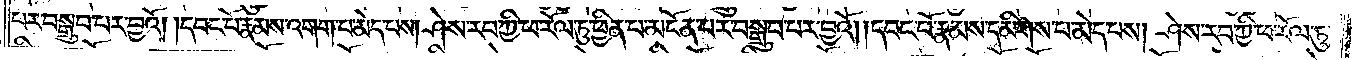པར་བསྒྲུབ་པར་བྱའོ། །དབང་པོ་རྣམས་འགག་པ་མེད་པས། ཤེས་རབ་ཀྱི་ཕ་རོལ་ཏུ་ཕྱིན་པ་མངོན་པར་བསྒྲུབ་པར་བྱའོ། །དབང་པོ་རྣམས་དམིགས་པ་མེད་པས། ཤེས་རབ་ཀྱི་ཕ་རོལ་ཏུ་
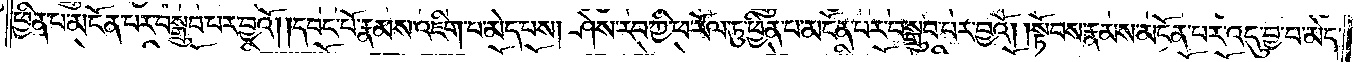ཕྱིན་པ་མངོན་པར་བསྒྲུབ་པར་བྱའོ། །དབང་པོ་རྣམས་འཇིག་པ་མེད་པས། ཤེས་རབ་ཀྱི་ཕ་རོལ་ཏུ་ཕྱིན་པ་མངོན་པར་བསྒྲུབ་པར་བྱའོ། །སྟོབས་རྣམས་མངོན་པར་འདུ་བྱ་བ་མེད་
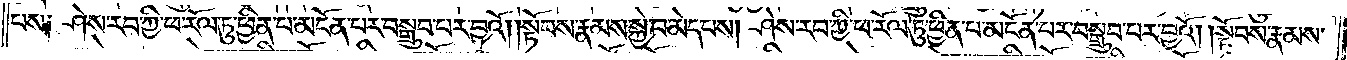པས༑ ཤེས་རབ་ཀྱི་ཕ་རོལ་ཏུ་ཕྱིན་པ་མངོན་པར་བསྒྲུབ་པར་བྱའོ། །སྟོབས་རྣམས་སྐྱེ་བ་མེད་པས། ཤེས་རབ་ཀྱི་ཕ་རོལ་ཏུ་ཕྱིན་པ་མངོན་པར་བསྒྲུབ་པར་བྱའོ། །སྟོབས་རྣམས་
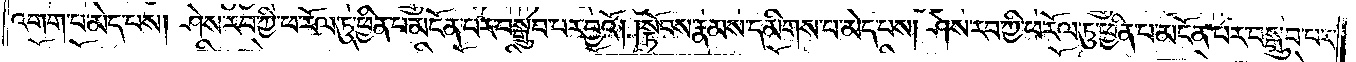འགག་པ་མེད་པས། ཤེས་རབ་ཀྱི་ཕ་རོལ་ཏུ་ཕྱིན་པ་མངོན་པར་བསྒྲུབ་པར་བྱའོ། །སྟོབས་རྣམས་དམིགས་པ་མེད་པས། ཤེས་རབ་ཀྱི་ཕ་རོལ་ཏུ་ཕྱིན་པ་མངོན་པར་བསྒྲུབ་པར་
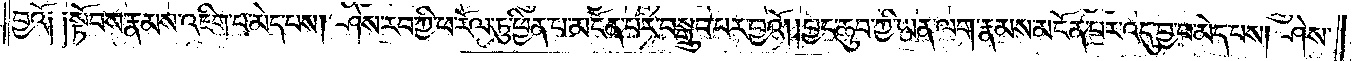བྱའོ༑ ༑སྟོབས་རྣམས་འཇིག་པ་མེད་པས། ཤེས་རབ་ཀྱི་ཕ་རོལ་ཏུ་ཕྱིན་པ་མངོན་པར་བསྒྲུབ་པར་བྱའོ། །བྱང་ཆུབ་ཀྱི་ཡན་ལག་རྣམས་མངོན་པར་འདུ་བྱ་བ་མེད་པས། ཤེས་
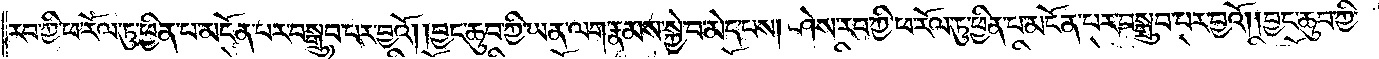རབ་ཀྱི་ཕ་རོལ་ཏུ་ཕྱིན་པ་མངོན་པར་བསྒྲུབ་པར་བྱའོ། །བྱང་ཆུབ་ཀྱི་ཡན་ལག་རྣམས་སྐྱེ་བ་མེད་པས། ཤེས་རབ་ཀྱི་ཕ་རོལ་ཏུ་ཕྱིན་པ་མངོན་པར་བསྒྲུབ་པར་བྱའོ། །བྱང་ཆུབ་ཀྱི་
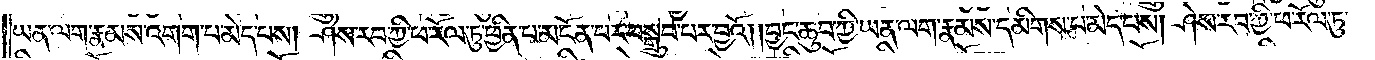ཡན་ལག་རྣམས་འགག་པ་མེད་པས། ཤེས་རབ་ཀྱི་ཕ་རོལ་ཏུ་ཕྱིན་པ་མངོན་པར་བསྒྲུབ་པར་བྱའོ། །བྱང་ཆུབ་ཀྱི་ཡན་ལག་རྣམས་དམིགས་པ་མེད་པས། ཤེས་རབ་ཀྱི་ཕ་རོལ་ཏུ་
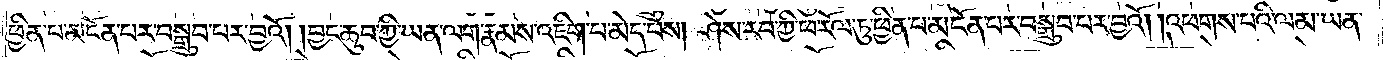ཕྱིན་པ་མངོན་པར་བསྒྲུབ་པར་བྱའོ། །བྱང་ཆུབ་ཀྱི་ཡན་ལག་རྣམས་འཇིག་པ་མེད་པས། ཤེས་རབ་ཀྱི་ཕ་རོལ་ཏུ་ཕྱིན་པ་མངོན་པར་བསྒྲུབ་པར་བྱའོ། །འཕགས་པའི་ལམ་ཡན་
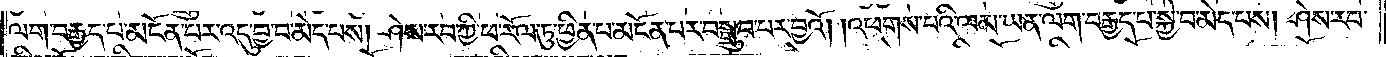ལག་བརྒྱད་པ་མངོན་པར་འདུ་བྱ་བ་མེད་པས། ཤེས་རབ་ཀྱི་ཕ་རོལ་ཏུ་ཕྱིན་པ་མངོན་པར་བསྒྲུབ་པར་བྱའོ། །འཕགས་པའི་ལམ་ཡན་ལག་བརྒྱད་པ་སྐྱེ་བ་མེད་པས། ཤེས་རབ་
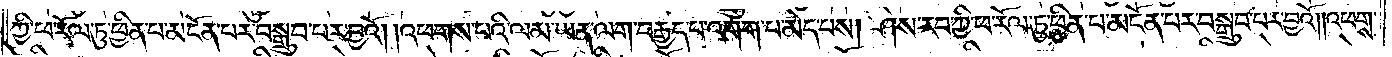ཀྱི་ཕ་རོལ་ཏུ་ཕྱིན་པ་མངོན་པར་བསྒྲུབ་པར་བྱའོ། །འཕགས་པའི་ལམ་ཡན་ལག་བརྒྱད་པ་འགག་པ་མེད་པས། ཤེས་རབ་ཀྱི་ཕ་རོལ་ཏུ་ཕྱིན་པ་མངོན་པར་བསྒྲུབ་པར་བྱའོ། །འཕགས་
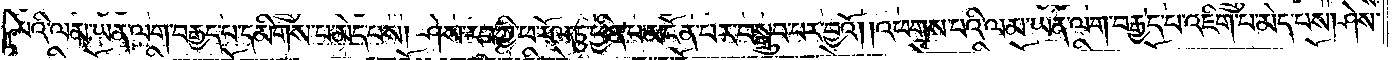པའི་ལམ་ཡན་ལག་བརྒྱད་པ་དམིགས་པ་མེད་པས། ཤེས་རབ་ཀྱི་ཕ་རོལ་ཏུ་ཕྱིན་པ་མངོན་པར་བསྒྲུབ་པར་བྱའོ། །འཕགས་པའི་ལམ་ཡན་ལག་བརྒྱད་པ་འཇིག་པ་མེད་པས། ཤེས་
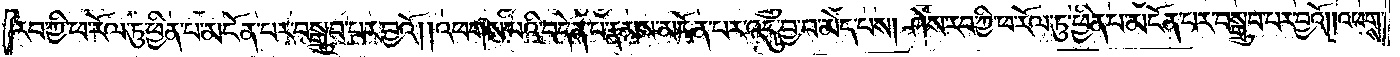རབ་ཀྱི་ཕ་རོལ་ཏུ་ཕྱིན་པ་མངོན་པར་བསྒྲུབ་པར་བྱའོ། །འཕགས་པའི་བདེན་པ་རྣམས་མངོན་པར་འདུ་བྱ་བ་མེད་པས། ཤེས་རབ་ཀྱི་ཕ་རོལ་ཏུ་ཕྱིན་པ་མངོན་པར་བསྒྲུབ་པར་བྱའོ། །འཕགས་
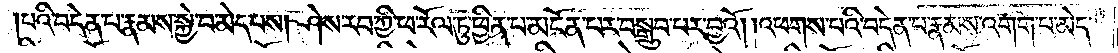པའི་བདེན་པ་རྣམས་སྐྱེ་བ་མེད་པས། ཤེས་རབ་ཀྱི་ཕ་རོལ་ཏུ་ཕྱིན་པ་མངོན་པར་བསྒྲུབ་པར་བྱའོ། །འཕགས་པའི་བདེན་པ་རྣམས་འགག་པ་མེད་
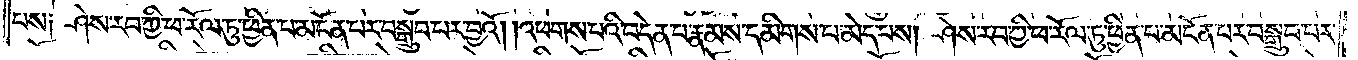པས༑ ཤེས་རབ་ཀྱི་ཕ་རོལ་ཏུ་ཕྱིན་པ་མངོན་པར་བསྒྲུབ་བར་བྱའོ། །འཕགས་པའི་བདེན་པ་རྣམས་དམིགས་པ་མེད་པས། ཤེས་རབ་ཀྱི་ཕ་རོལ་ཏུ་ཕྱིན་པ་མངོན་པར་བསྒྲུབ་པར་
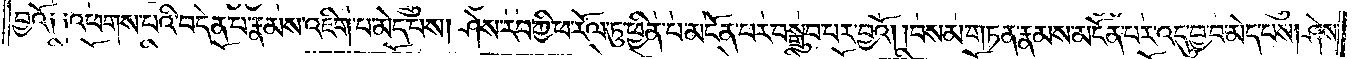བྱའོ༑ ༑འཕགས་པའི་བདེན་པ་རྣམས་འཇིག་པ་མེད་པས། ཤེས་རབ་ཀྱི་ཕ་རོལ་ཏུ་ཕྱིན་པ་མངོན་པར་བསྒྲུབ་པར་བྱའོ། །བསམ་གཏན་རྣམས་མངོན་པར་འདུ་བྱ་བ་མེད་པས། ཤེས་
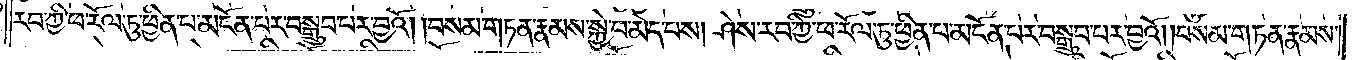རབ་ཀྱི་ཕ་རོལ་ཏུ་ཕྱིན་པ་མངོན་པར་བསྒྲུབ་པར་བྱའོ། །བསམ་གཏན་རྣམས་སྐྱེ་བ་མེད་པས། ཤེས་རབ་ཀྱི་ཕ་རོལ་ཏུ་ཕྱིན་པ་མངོན་པར་བསྒྲུབ་པར་བྱའོ། །བསམ་གཏན་རྣམས་
